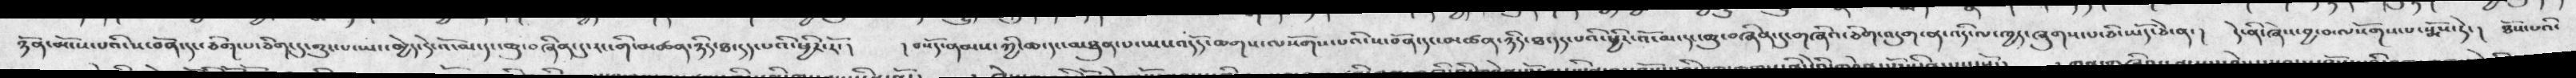ཉོན་མོངས་པའི་ས་བོན་དང་ཅིག་པ་ཅིག་དུ་གྱུར་པ་ཡང་མྱེད་དེ་འོ་མ་དང་ཆུ་བཞིན་དུ་རང་གི་མཚན་ཉིད་ཐ་དད་པའི་ཕྱིར་རོ་།  ། བསོད་ནམས་ཀྱི་ཆ་དང་མཐུན་པ་ཡང་འདོད་ཆོགས་ལསོགས་པའི་ས་བོན་དང་མཚན་ཉིད་ཐ་དད་པའི་ཕྱིར་འོ་མ་དང་ཆུ་བཞིན་དུ་གཞིའ་ཅིག་འདུག་ན་འདི་ལ་ཁྱད་ཞུགས་པ་ཅི་ཡོད་ཅེ་ན་།  དེ་ནི་ཞེས་བྱ་བ་ལསོགས་པ་སྨོས་ཏེ་།  ཐོས་པའི་
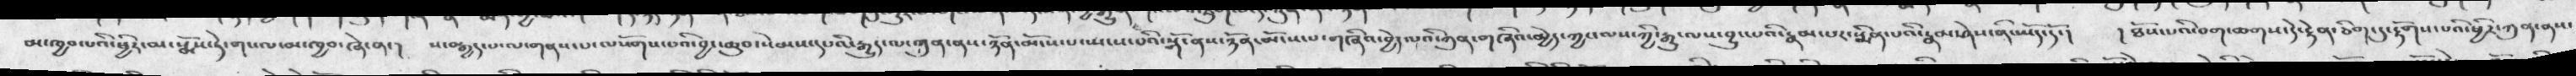མ་ཁྱབ་པའི་མ་སྨོས་ཏེ་གསལ་མ་ཁྱབ་ཞེ་ན་།  ས་བརྒྱད་པ་ལ་གནས་པ་ལསོགས་པའི་བྱང་ཆུབ་སེམས་དཔའི་རྒྱུད་ལ་ཀུན་ནས་ཉོན་མོངས་པ་སྤངས་པའི་སྒོ་ནས་ཉོན་མོངས་པ་གཞིའ་བྱེད་པའི་ཀུན་གཞིའ་མྱེད་ཀྱང་ལས་ཀྱི་རྒྱུ་ལས་བྱུང་པའི་རྣམ་པར་སྨིན་པའི་རྣམ་ཤེས་ནི་ཡོད་དོ་།  ། ཐོས་པའི་བག་ཆགས་དེ་རྟེན་ཅིག་དུ་རྟོགས་པའི་ཕྱིར་ཀུན་ནས་
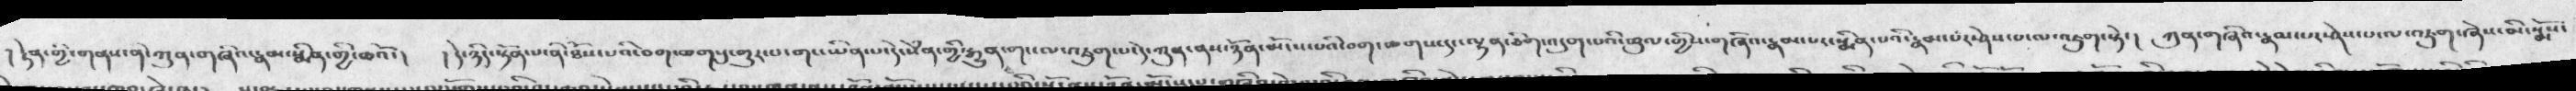། རྟེན་གྱི་གནས་ནི་ཀུན་གཞིའ་རྣམ་སྨིན་གྱི་ཆའོ་།  ། དེ་ཉིད་སྟོན་པ་ནི་ཐོས་པའི་བག་ཆགསུ་གྱུར་པ་གང་ཡིན་པ་དེ་སེཾན་གྱི་རྒྱུན་གང་ལ་འཇུག་པ་དེ་ཀུན་ནས་ཉོན་མོངས་པའི་བག་ཆགས་དང་ལྷན་ཅིག་འདུག་པའི་ཚུལ་གྱིས་གཞིའ་རྣམ་པར་སྨིན་པའི་རྣམ་པར་ཤེས་པ་ལ་འཇུག་སྟེ་།  ཀུན་གཞིའ་རྣམ་པར་ཤེས་པ་ལ་འཇུག་ཞེས་མི་སྨོས་
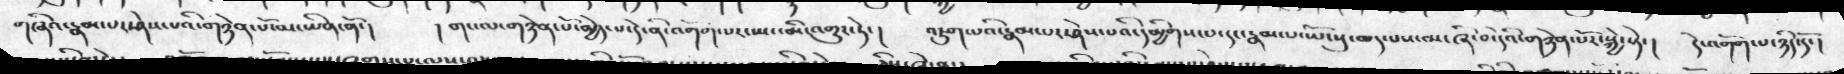གཞིའ་རྣམ་པར་ཤེས་པའི་གཉེན་པོ་མ་ཡིན་ནོ་།  ། གང་ལ་གཉེན་པོ་མྱེད་པ་དེ་ནི་འགོག་པར་ཡང་མི་འགྱུར་ཏེ་།  འཇུག་པའི་རྣམ་པར་ཤེས་པའི་དམྱིགས་པ་དང་རྣམ་པ་ཡོངསུ་ཆད་པས་མ་ཞི་བ་དེའི་གཉེན་པོར་སྐྱེ་སྟེ་།  དེ་འགོག་པ་ཉིད་དོ་།
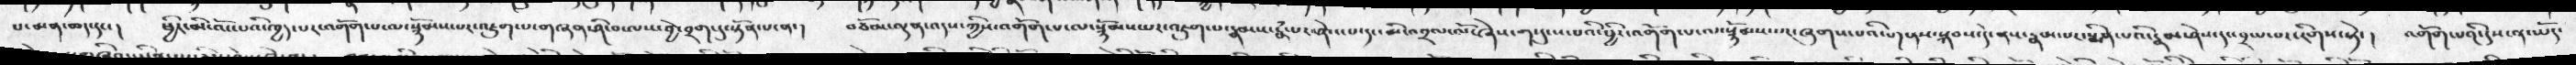པ་མན་ཆད་དང་།  ཕྱིར་མི་འོང་པའི་ཁྱད་པར་འགོག་པ་ལ་སྙོམས་པར་འཇུག་པ་གཞན་ཤི་བ་ལས་བྱེ་བྲག་དུ་སྟོན་པ་ན་།  བཅོམ་ལྡན་འདས་ཀྱིས་འགོག་པ་ལ་སྙོམས་པར་འཇུག་པ་རྣམས་རྣཾ་པར་ཤེས་པ་དང་མི་འགྲལ་ལོ་ཞེས་གསུངས་པའི་ཕྱིར་འགོག་པ་ལ་སྙོམས་པར་ཞུགས་པའི་གནས་སྐབས་དེ་ནས་རྣམ་པར་སྨིན་པའི་རྣམ་ཤེས་དང་བྲལ་བར་རིགས་སྟེ་།  འགོག་པའི་དུས་ན་ཡོད་
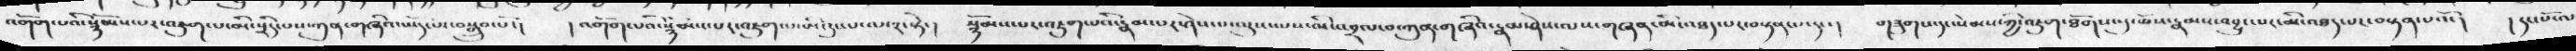འགོག་པའི་སྙོམས་པར་འཇུག་པ་མི་སྲིད་པས་ཀུན་གཞིའ་ཡོད་པ་བསྒྲུབ་པོ་།  ། འགོག་པའི་སྙོམས་པར་འཇུག་པ་མི་རུང་པ་ལ་༢་སྟེ་།   སྙོམས་པར་འཇུག་པའི་རྣམ་པར་ཤེས་པ་ལུས་ལས་མི་འབྲལ་བ་ཀུན་གཞིའ་རྣམ་ཤེས་ལས་གཞན་མི་འཐད་པར་བསྟན་པ་དང་།  གཟུགས་དང་སེམས་ཀྱི་འཇུག་ཐོགས་སུ་ཆོས་རྣམས་འབྱུང་པར་མི་འཐད་པར་བསྟན་པའོ་།  ། དང་པོ་ལ
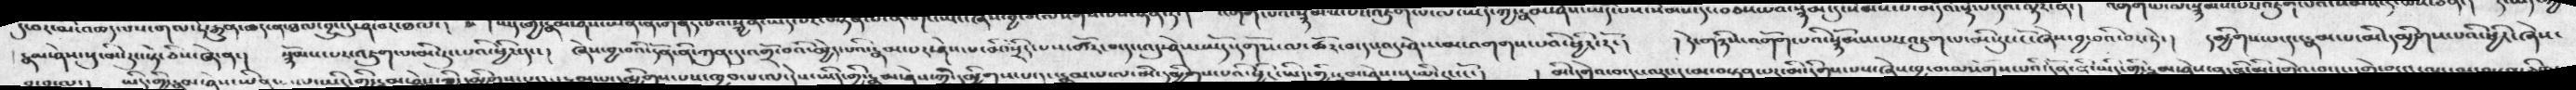རྣམ་ཤེས་སུ་མི་རུང་སྟེ་ཅིས་ཞེ་ན་།  སྙོམས་པར་འཇུག་པ་མི་རུང་པའི་ཕྱིར་དང་།  ཞེས་བྱ་བའི་དོན་ནི་ཀུན་དུ་འགྲོ་བའི་མྱེད་པའི་རྣམ་པར་ཤེས་པ་མི་སྲིད་པས་ཚོར་པ་དང་འདུ་ཤེས་ཡོད་དགོས་ལ་ཚོར་བ་དང་འདུ་ཤེས་མ་འགགས་པའི་ཕྱིར་རོ་།  ། དེ་གཉིས་འགོག་པའི་སྙོམས་པར་འཇུག་པ་མི་རུང་ངོ་ཞེས་བྱ་བའི་བར་ཏེ་།  དམྱིགས་པ་དང་རྣམ་པ་མི་དམྱིགས་པའི་ཕྱིར་ཞེས་
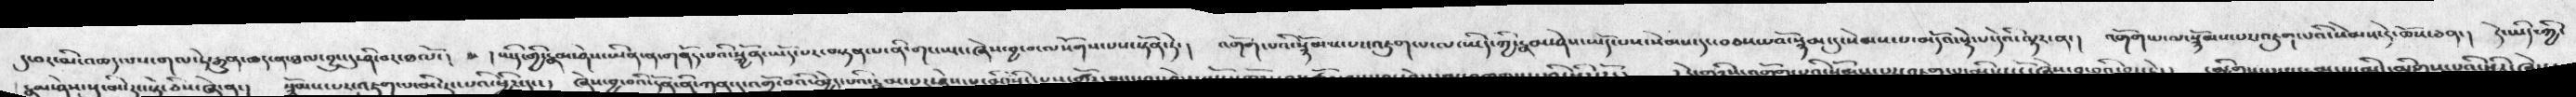དུ་བར་མི་འཆད་པས་གལ་ཏེ་རྒྱུན་ཆད་ན་ཐལ་བྱུང་དུ་ཤི་བར་ཐལོ་།  ། ཡིད་གྱི་རྣམ་ཤེས་ཡིན་ན་གནོད་པའི་སྐྱོན་ཡོད་པར་བསྟན་པ་ནི་གང་ཡང་ཞེས་བྱ་བ་ལསོགས་པས་སྟོན་ཏེ་།  འགོག་པའི་སྙོམས་པས་འཇུག་པ་ལ་ཡིད་ཀྱི་རྣམ་ཤེས་ཡོད་པས་སེམས་དང་བཅས་པའོ་སྙམ་དུ་སེམས་པ་མདོའ་སྡེ་པ་དེའི་ལྟར་ན་།  འགོག་པ་ལ་སྙོམས་པར་འཇུག་པའི་སེམས་དེ་ཆོས་ཅན་།  དེ་ཡིད་ཀྱི་
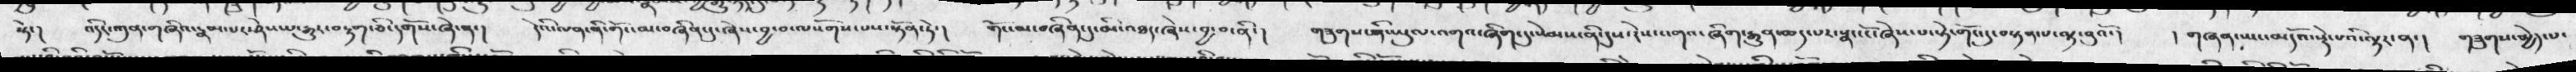སྟེ་།  འདིར་ཀུན་གཞིའ་རྣམ་པར་ཤེས་པ་རྒྱུར་བརྟག་ཅི་དགོས་ཞེ་ན་།   དའི་ལན་ནི་གོང་མ་བཞིན་དུ་ཞེས་བྱ་བ་ལསོགས་པས་སྟོན་ཏེ་།   གོང་མ་བཞིན་དུ་མི་འཐད་ཞེས་བྱ་བ་ནི་།  གཟུགས་ནི་ཡུལ་འགའ་ཞིག་དུ་སེམས་ནི་དུས་ངེས་འགའ་ཞིག་རྒྱུན་ཆད་པར་སྣང་ངོ་ཞེས་པ་སྟེ་གོང་དུ་བསྟན་པ་ལྟ་བུའོ་།  ། གཞན་ཡང་མདོའ་སྡེ་པའི་ལྟར་ན་།  གཟུགས་མྱེད་པ་
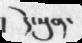།    དེ་སུན་
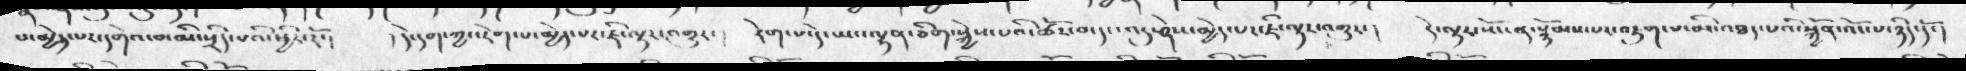པ་མྱེད་པར་དགེའ་བ་མི་སྲིད་པའི་ཕྱིར་རོ་།  ། དེ་དག་ཀྱང་རེག་པ་མྱེད་པར་ཇི་ལྟར་འགྱུར་།  རེག་པ་དེ་ཡང་ལྷན་ཅིག་སྐྱེས་པའི་ཚོར་བ་དང་འདུ་ཤེས་མྱེད་པར་ཇི་ལྟར་འགྱུར་།  དེ་ལྟར་སོང་ན་སྙོམས་པར་འཇུག་པ་མི་འཐད་པའི་སྐྱོན་འོང་པ་ཉིད་དོ་།
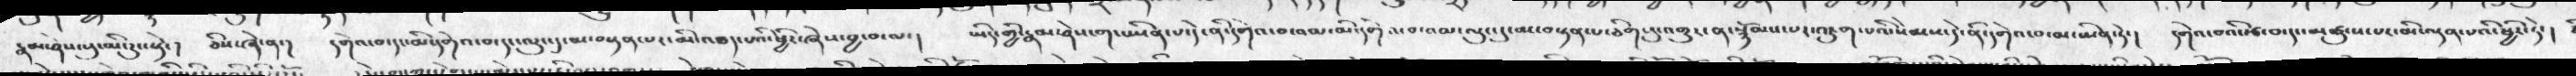རྣམ་ཤེས་སུ་མི་རུང་སྟེ་།  ཅིས་ཞེ་ན་།  དགེའ་བ་དང་མི་དགེའ་བ་དང་ལུང་དུ་མ་བསྟན་པར་མི་འཐད་པའི་ཕྱིར་ཞེས་བྱ་བ་ལ་།  ཡིད་གྱི་རྣམ་ཤེས་གང་ཡིན་པ་དེ་ནི་དགེའ་བ་འམ་མི་དགེའ་བ་འམ་ལུང་དུ་མ་བསྟན་པ་ཅིག་དུ་འགྱུར་ན་སྙོམས་པར་འཇུག་པའི་སེམས་དེ་ནི་དགེའ་བ་མ་ཡིན་ཏེ་།  དགེའ་བའི་རྩ་བ་དང་མཚུངས་པར་མི་ལྡན་པའི་ཕྱིར་ཏེ་།
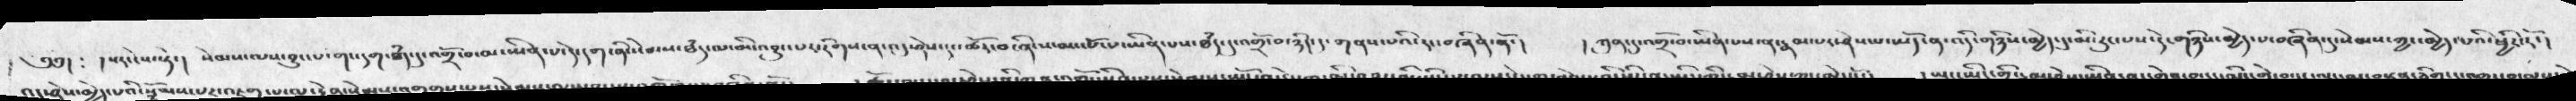༄༅། ༴ །སར་ངེས་སྟེ་།  སེམས་ལས་བྱུང་པ་གང་དག་ཐཾད་དུ་འགྲོ་བ་མ་ཡིན་དེ་དག་ནི་སེམས་ཐཾད་ལ་མི་འབྱུང་པར་རིགས་ན་འདུ་ཤེས་དང་ཚོར་བ་ནི་ས་མཚམས་་ཡིན་པས་ཐཾད་དུ་འགྲོ་བ་ཉིད་དུ་གནས་པའི་རང་བཞིན་ནོ་།  ། ཀུན་དུ་འགྲོ་བ་ཡིན་པས་ན་རྣམ་པར་ཤེས་པ་ཡོད་ན་འདི་གཉིས་མྱེད་དུ་མི་རུང་པས་དེ་གཉིས་མྱེད་པ་བཞིན་དུ་སེམས་ཀྱང་མྱེད་པའི་ཕྱིར་རོ་།
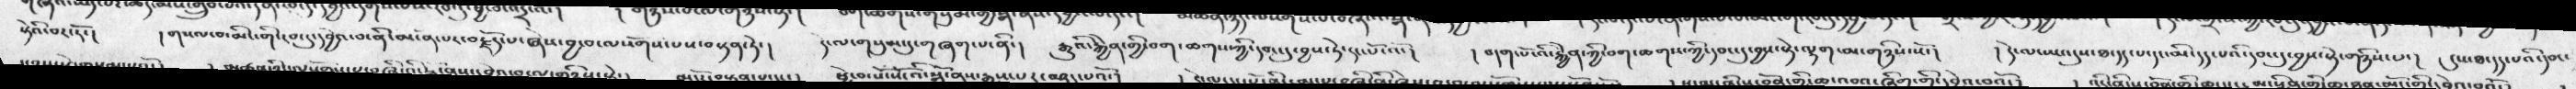སྟེའི་བར་རོ་།   ། གསལ་བ་མིང་གི་རབ་དུ་དབྱེའ་བ་ནི་མངོན་པར་བརྗོད་པ་ཞེས་བྱ་བ་ལསོགས་པས་བསྟན་ཏེ་།   དེ་ལ་གསུམ་དུ་གཞག་པ་ནི་།  རྒྱུའི་རྐྱེན་གྱི་བག་ཆགས་ཀྱི་དབང་དུ་བྱས་ཏེ་དང་པོ་འོ་།   ། བདག་པོ་འི་རྐྱེན་གྱི་བག་ཆགས་ཀྱི་དབང་དུ་བྱས་སྟེ་ལྷག་མ་གཉིས་སོ་།   ། དེ་ལ་ཡང་དུ་ཐ་དད་པ་དང་མི་དད་པའི་དབང་དུ་བྱས་སྟེ་གཉིས་པ་།  དུས་ཐ་དད་པའི་དབང་
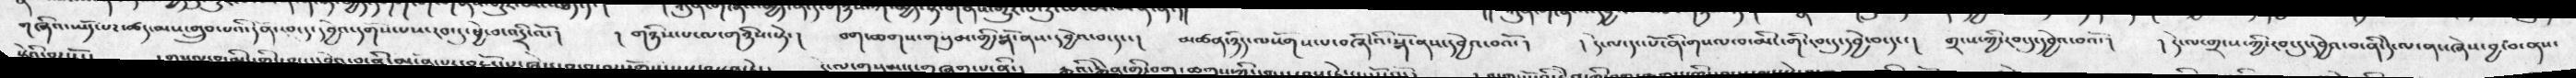གཞིའ་ཡོད་པར་ཚད་མས་གྲུབ་པའི་དོན་རབ་དུ་དབྱེའ་དགོས་པས་རབ་དུ་ཕྱེ་བ་འདྲི་འོ་།  ། གཉིས་པ་ལ་གཉིས་སྟེ་།  བག་ཆགས་གསུམ་གྱི་སྒོ་ནས་དབྱེའ་བ་དང་། མཚན་ཉིད་ལསོགས་པ་བཞིའི་སྒོ་ནས་དབྱེའ་བའོ་།   ། དེ་ལ་དང་པོ་ནི་གསལ་བ་མིང་གི་དབངདུ་དབྱེ་བ་དང་།  གྲངས་ཀྱི་རབ་དུ་དབྱེའ་བའོ་།  ། དེ་ལ་གྲངས་ཀྱི་རབ་དུ་དབྱེའ་བ་ནི་དེ་ལ་ནང་ཞེས་བྱ་བ་ནས་
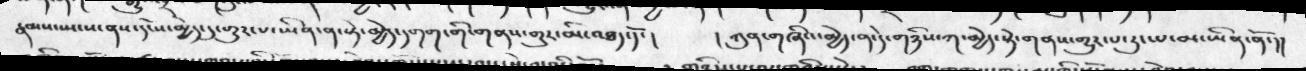རྣམས་སྤངས་ནས་དངོས་མྱེད་དུ་གྱུར་པ་ཡིན་ན་སྟེ་མྱེད་དགག་གི་གནས་གྱུར་མི་འཐད་དོ་།  ། ཀུན་གཞིའ་མྱེད་ན་དེ་གཉིས་ཀ་མྱེད་སྟེ་གནས་གྱུར་པ་རུང་བ་མ་ཡིན་ནོ་།།
